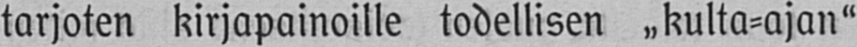tarjoten kirjapainoille todellisen „ kulta-ajan"
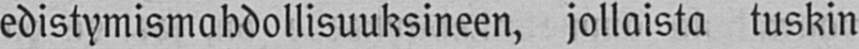edistymismahdollisuuksineen, jollaista tuskin
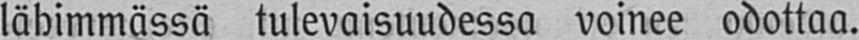lähimmässä tulevaisuudessa voinee odottaa,
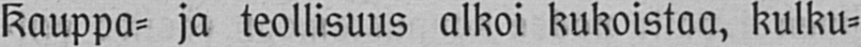kauppa- ja teollisuus alkoi kukoistaa, kulku-
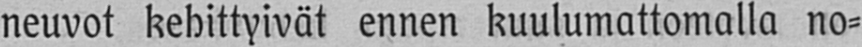neuvot kehittyivät ennen kuulumattomalla no-
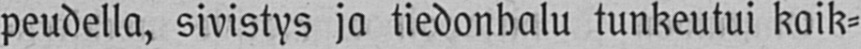peudella, sivistys ja tiedonhalu tunkeutui kaik-
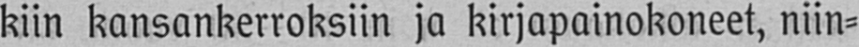kiin kansankerroksiin ja kirjapainokoneet, niin-
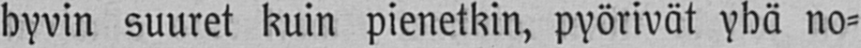hyvin suuret kuin pienetkin, pyörivät yhä no-
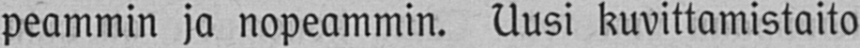peammin ja nopeammin. Uusi kuvittamistako
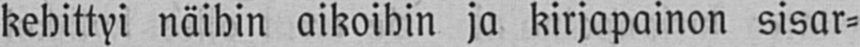kehittyi näihin aikoihin ja kirjapainon sisar-
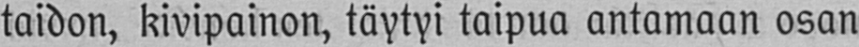taidon, kivipainon, täytyi taipua antamaan osan
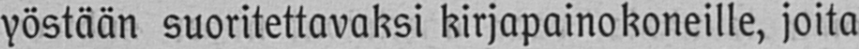yöstään suoritettavaksi kirjapainokoneille, joita
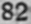82
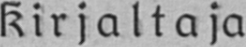kirjaltaja
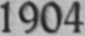1004
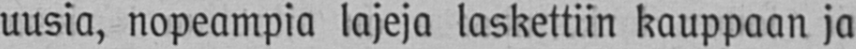uusia, nopeampia lajeja laskettiin kauppaan ja
